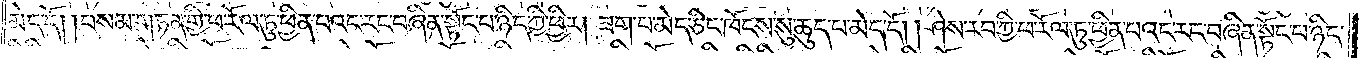མེད་དོ། །བསམ་གཏན་གྱི་ཕ་རོལ་ཏུ་ཕྱིན་པའང་རང་བཞིན་སྟོང་པ་ཉིད་ཀྱི་ཕྱིར། ཟག་པ་མེད་ཅིང་ཁོངས་སུ་ཆུད་པ་མེད་དོ། །ཤེས་རབ་ཀྱི་ཕ་རོལ་ཏུ་ཕྱིན་པའང་རང་བཞིན་སྟོང་པ་ཉིད་
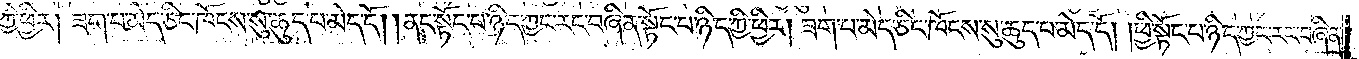ཀྱི་ཕྱིར། ཟག་པ་མེད་ཅིང་ཁོངས་སུ་ཆུད་པ་མེད་དོ། །ནང་སྟོང་པ་ཉིད་ཀྱང་རང་བཞིན་སྟོང་པ་ཉིད་ཀྱི་ཕྱིར། ཟག་པ་མེད་ཅིང་ཁོངས་སུ་ཆུད་པ་མེད་དོ། །ཕྱི་སྟོང་པ་ཉིད་ཀྱང་རང་བཞིན་
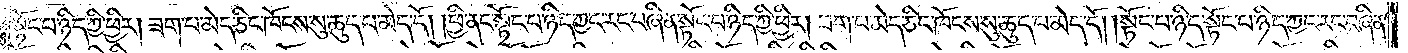སྟོང་པ་ཉིད་ཀྱི་ཕྱིར། ཟག་པ་མེད་ཅིང་ཁོངས་སུ་ཆུད་པ་མེད་དོ། །ཕྱི་ནང་སྟོང་པ་ཉིད་ཀྱང་རང་བཞིན་སྟོང་པ་ཉིད་ཀྱི་ཕྱིར། ཟག་པ་མེད་ཅིང་ཁོངས་སུ་ཆུད་པ་མེད་དོ། །སྟོང་པ་ཉིད་སྟོང་པ་ཉིད་ཀྱང་རང་བཞིན་
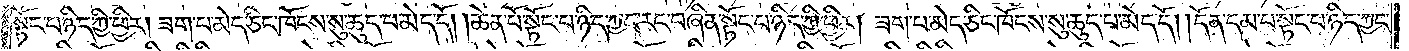སྟོང་པ་ཉིད་ཀྱི་ཕྱིར། ཟག་པ་མེད་ཅིང་ཁོངས་སུ་ཆུད་པ་མེད་དོ། །ཆེན་པོ་སྟོང་པ་ཉིད་ཀྱང་རང་བཞིན་སྟོང་པ་ཉིད་ཀྱི་ཕྱིར། ཟག་པ་མེད་ཅིང་ཁོངས་སུ་ཆུད་པ་མེད་དོ། །དོན་དམ་པ་སྟོང་པ་ཉིད་ཀྱང་
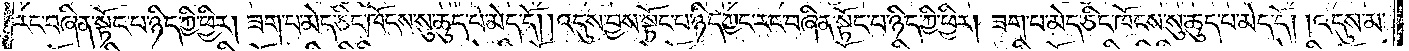རང་བཞིན་སྟོང་པ་ཉིད་ཀྱི་ཕྱིར། ཟག་པ་མེད་ཅིང་ཁོངས་སུ་ཆུད་པ་མེད་དོ། །འདུས་བྱས་སྟོང་པ་ཉིད་ཀྱང་རང་བཞིན་སྟོང་པ་ཉིད་ཀྱི་ཕྱིར། ཟག་པ་མེད་ཅིང་ཁོངས་སུ་ཆུད་པ་མེད་དོ། །འདུས་མ་
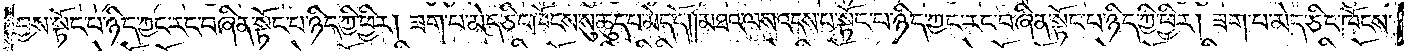བྱས་སྟོང་པ་ཉིད་ཀྱང་རང་བཞིན་སྟོང་པ་ཉིད་ཀྱི་ཕྱིར། ཟག་པ་མེད་ཅིང་ཁོངས་སུ་ཆུད་པ་མེད་དོ། །མཐའ་ལས་འདས་པ་སྟོང་པ་ཉིད་ཀྱང་རང་བཞིན་སྟོང་པ་ཉིད་ཀྱི་ཕྱིར། ཟག་པ་མེད་ཅིང་ཁོངས་
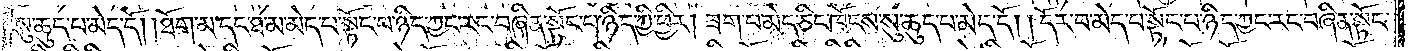སུ་ཆུད་པ་མེད་དོ། །ཐོག་མ་དང་ཐ་མ་མེད་པ་སྟོང་པ་ཉིད་ཀྱང་རང་བཞིན་སྟོང་པ་ཉིད་ཀྱི་ཕྱིར། ཟག་པ་མེད་ཅིང་ཁོངས་སུ་ཆུད་པ་མེད་དོ། །དོར་བ་མེད་པ་སྟོང་པ་ཉིད་ཀྱང་རང་བཞིན་སྟོང་
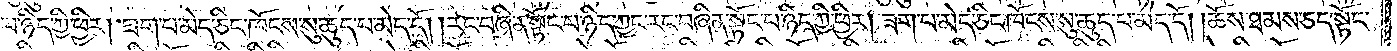པ་ཉིད་ཀྱི་ཕྱིར། ཟག་པ་མེད་ཅིང་ཁོངས་སུ་ཆུད་པ་མེད་དོ། །རང་བཞིན་སྟོང་པ་ཉིད་ཀྱང་རང་བཞིན་སྟོང་པ་ཉིད་ཀྱི་ཕྱིར། ཟག་པ་མེད་ཅིང་ཁོངས་སུ་ཆུད་པ་མེད་དོ། །ཆོས་ཐམས་ཅད་སྟོང་
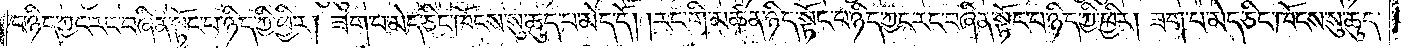པ་ཉིད་ཀྱང་རང་བཞིན་སྟོང་པ་ཉིད་ཀྱི་ཕྱིར། ཟག་པ་མེད་ཅིང་ཁོངས་སུ་ཆུད་པ་མེད་དོ། །རང་གི་མཚན་ཉིད་སྟོང་པ་ཉིད་ཀྱང་རང་བཞིན་སྟོང་པ་ཉིད་ཀྱི་ཕྱིར། ཟག་པ་མེད་ཅིང་ཁོངས་སུ་ཆུད་
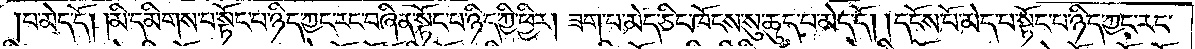པ་མེད་དོ། །མི་དམིགས་པ་སྟོང་པ་ཉིད་ཀྱང་རང་བཞིན་སྟོང་པ་ཉིད་ཀྱི་ཕྱིར། ཟག་པ་མེད་ཅིང་ཁོངས་སུ་ཆུད་པ་མེད་དོ། །དངོས་པོ་མེད་པ་སྟོང་པ་ཉིད་ཀྱང་རང་
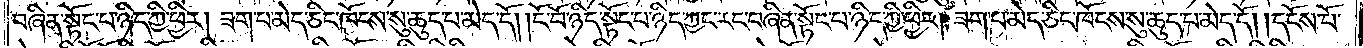བཞིན་སྟོང་པ་ཉིད་ཀྱི་ཕྱིར། ཟག་པ་མེད་ཅིང་ཁོངས་སུ་ཆུད་པ་མེད་དོ། །ངོ་བོ་ཉིད་སྟོང་པ་ཉིད་ཀྱང་རང་བཞིན་སྟོང་པ་ཉིད་ཀྱི་ཕྱིར། ཟག་པ་མེད་ཅིང་ཁོངས་སུ་ཆུད་པ་མེད་དོ། །དངོས་པོ་
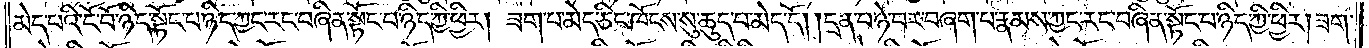མེད་པའི་ངོ་བོ་ཉིད་སྟོང་པ་ཉིད་ཀྱང་རང་བཞིན་སྟོང་པ་ཉིད་ཀྱི་ཕྱིར། ཟག་པ་མེད་ཅིང་ཁོངས་སུ་ཆུད་པ་མེད་དོ། །དྲན་པ་ཉེ་བར་བཞག་པ་རྣམས་ཀྱང་རང་བཞིན་སྟོང་པ་ཉིད་ཀྱི་ཕྱིར། ཟག་
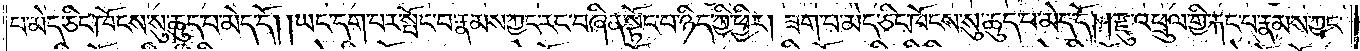པ་མེད་ཅིང་ཁོངས་སུ་ཆུད་པ་མེད་དོ། །ཡང་དག་པར་སྤོང་བ་རྣམས་ཀྱང་རང་བཞིན་སྟོང་པ་ཉིད་ཀྱི་ཕྱིར། ཟག་པ་མེད་ཅིང་ཁོངས་སུ་ཆུད་པ་མེད་དོ། །རྫུ་འཕྲུལ་གྱི་རྐང་པ་རྣམས་ཀྱང་
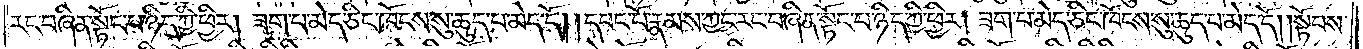རང་བཞིན་སྟོང་པ་ཉིད་ཀྱི་ཕྱིར། ཟག་པ་མེད་ཅིང་ཁོངས་སུ་ཆུད་པ་མེད་དོ། །དབང་པོ་རྣམས་ཀྱང་རང་བཞིན་སྟོང་པ་ཉིད་ཀྱི་ཕྱིར། ཟག་པ་མེད་ཅིང་ཁོངས་སུ་ཆུད་པ་མེད་དོ། །སྟོབས་
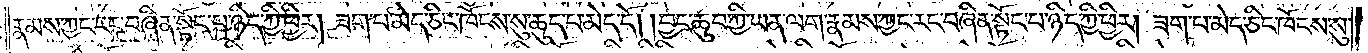རྣམས་ཀྱང་རང་བཞིན་སྟོང་པ་ཉིད་ཀྱི་ཕྱིར། ཟག་པ་མེད་ཅིང་ཁོངས་སུ་ཆུད་པ་མེད་དོ། །བྱང་ཆུབ་ཀྱི་ཡན་ལག་རྣམས་ཀྱང་རང་བཞིན་སྟོང་པ་ཉིད་ཀྱི་ཕྱིར། ཟག་པ་མེད་ཅིང་ཁོངས་སུ་
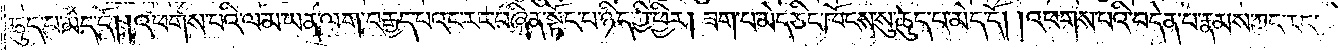ཆུད་པ་མེད་དོ། །འཕགས་པའི་ལམ་ཡན་ལག་བརྒྱད་པའང་རང་བཞིན་སྟོང་པ་ཉིད་ཀྱི་ཕྱིར། ཟག་པ་མེད་ཅིང་ཁོངས་སུ་ཆུད་པ་མེད་དོ། །འཕགས་པའི་བདེན་པ་རྣམས་ཀྱང་རང་
